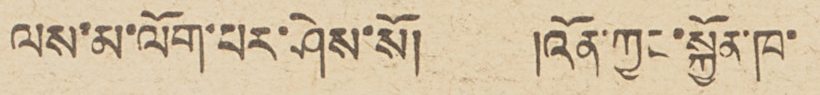ལས་མ་ལོག་པར་ཤེས་སོ།      །འོན་ཀྱང་སྐྱོན་ཁ་
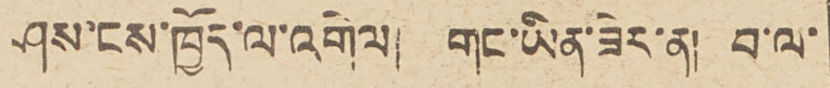ཤས་ངས་ཁྱོད་ལ་འགེལ།  གང་ཡིན་ཟེར་ན། བ་ལ་
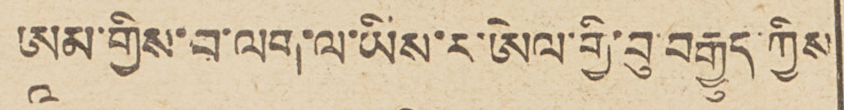ཨཱམ་གྱིས་བ་ལག་ལ་ཡིས་ར་ཨེལ་གྱི་བུ་བརྒྱུད་ཀྱིས
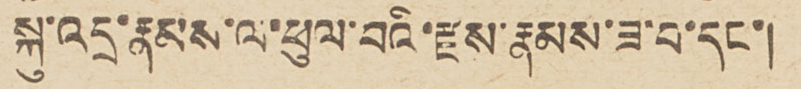སྐུ་འདྲ་རྣམས་ལ་ཕུལ་བའི་རྫས་རྣམས་ཟ་བ་དང་།
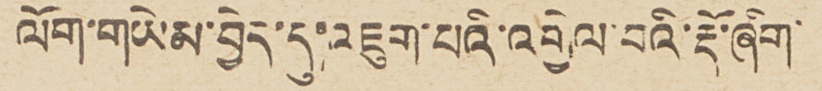ལོག་གཡེམ་བྱེད་དུ་འཇུག་པའི་འགྱེལ་བའི་རྡོ་ཞིག་
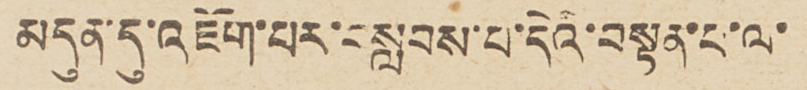མདུན་དུ་འཇོག་པར་བསླབས་པ་དེའི་བསྟན་པ་ལ་
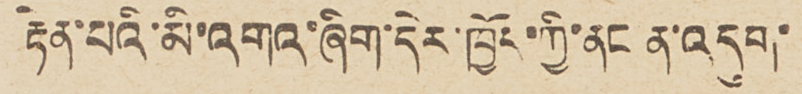རྟེན་པའི་མི་འགའ་ཞིག་དེར་ཁྱོད་ཀྱི་ནང ན་འདུག་
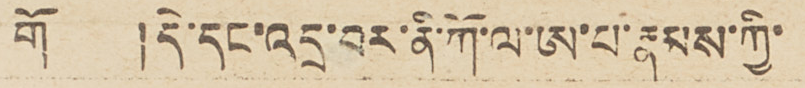གོ    །དེ་དང་འདྲ་བར་ནི་ཀོ་ལ་ཨ་པ་རྣམས་ཀྱི་
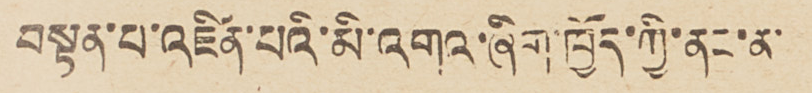བསྟན་པ་འཛིན་པའི་མི་འགའ་ཞིག་ཁྱོད་ཀྱི་ནང་ན་
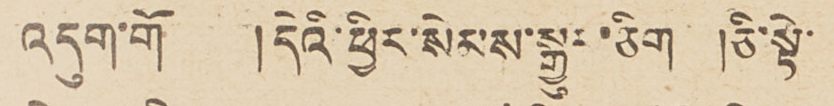འདུག་གོ      །དེའི་ཕྱིར་སེམས་སྒྱུར་ཅིག  །ཅི་སྟེ་
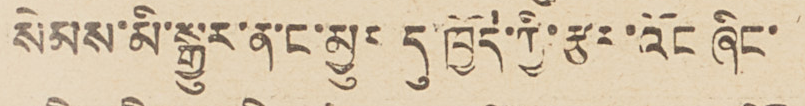སེམས་མི་སྒྱུར་ན་ང་མྱུར དུ་ཁྱོད་ཀྱི་རྩར་འོང ཞིང་
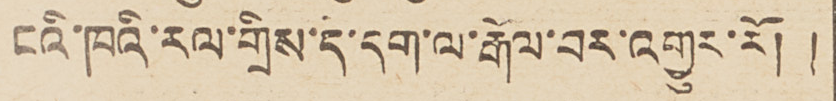ངའི་ཁའི་རལ་གྲིས་དེ་དག་ལ་རྒོལ་བར་འགྱུར་རོ། །
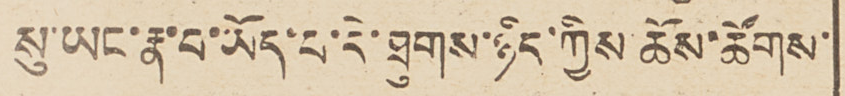སུ་ཡང་རྣ་བ་ཡོད་པ་དེ་ཐུགས་ཉིད་ཀྱིས་ཆོས་ཚོགས་
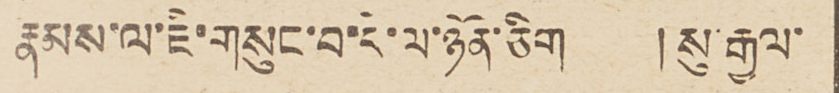རྣམས་ལ་ཇི་གསུང་བ་དེ་ལ་ཉོན་ཅིག     ། སུ་རྒྱལ་
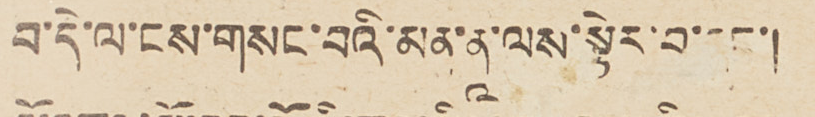བ་དེ་ལ་ངས་གསང་བའི་མན་ནཱ་ལས་སྟེར་བ་དང་།
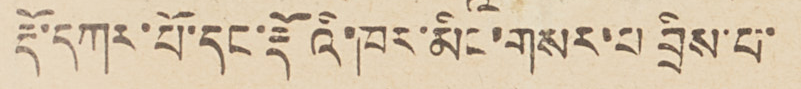རྡོ་དཀར་པོ་དང་རྡོའི་ཁར་མིང་གསར་པ བྲིས་པ་
